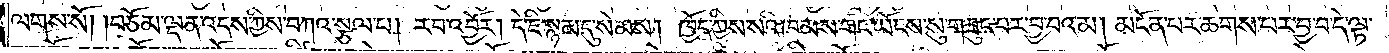ལགས་སོ། །བཅོམ་ལྡན་འདས་ཀྱིས་བཀའ་སྩལ་པ། རབ་འབྱོར། དེ་ཇི་སྙམ་དུ་སེམས། ཁྱོད་ཀྱིས་སའི་ཁམས་གང་ཡོངས་སུ་གཟུང་བར་བྱ་བའམ། མངོན་པར་ཆགས་པར་བྱ་བ་དེ་ལྟ་
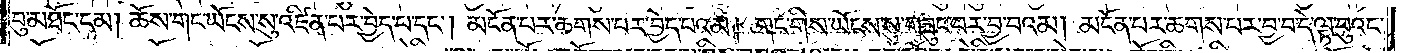བུ་མཐོང་ངམ། ཆོས་གང་ཡོངས་སུ་འཛིན་པར་བྱེད་པ་དང༌། མངོན་པར་ཆགས་པར་བྱེད་པའམ། གང་གིས་ཡོངས་སུ་གཟུང་བར་བྱ་བའམ། མངོན་པར་ཆགས་པར་བྱ་བ་དེ་ལྟ་བུའང་
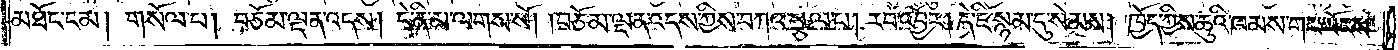མཐོང་ངམ། གསོལ་པ། བཅོམ་ལྡན་འདས། དེ་ནི་མ་ལགས་སོ། །བཅོམ་ལྡན་འདས་ཀྱིས་བཀའ་སྩལ་པ། རབ་འབྱོར། དེ་ཇི་སྙམ་དུ་སེམས། ཁྱོད་ཀྱིས་ཆུའི་ཁམས་གང་ཡོངས་
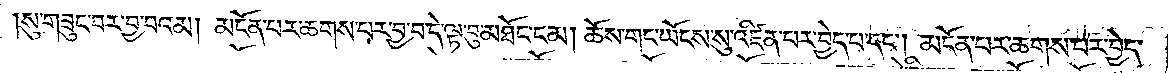སུ་གཟུང་བར་བྱ་བའམ། མངོན་པར་ཆགས་པར་བྱ་བ་དེ་ལྟ་བུ་མཐོང་ངམ། ཆོས་གང་ཡོངས་སུ་འཛིན་པར་བྱེད་པ་དང༌། མངོན་པར་ཆགས་པར་བྱེད་
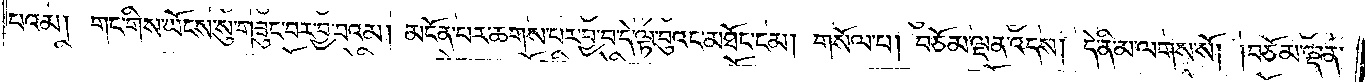པའམ། གང་གིས་ཡོངས་སུ་གཟུང་བར་བྱ་བའམ། མངོན་པར་ཆགས་པར་བྱ་བ་དེ་ལྟ་བུའང་མཐོང་ངམ། གསོལ་པ། བཅོམ་ལྡན་འདས། དེ་ནི་མ་ལགས་སོ། །བཅོམ་ལྡན་
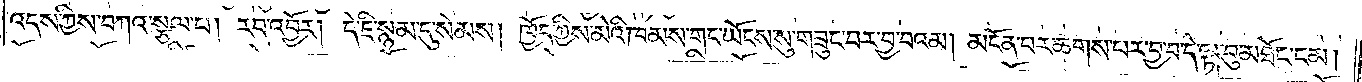འདས་ཀྱིས་བཀའ་སྩལ་པ། རབ་འབྱོར། དེ་ཇི་སྙམ་དུ་སེམས། ཁྱོད་ཀྱིས་མེའི་ཁམས་གང་ཡོངས་སུ་གཟུང་བར་བྱ་པའམ། མངོན་པར་ཆགས་པར་བྱ་བ་དེ་ལྟ་བུ་མཐོང་ངམ།
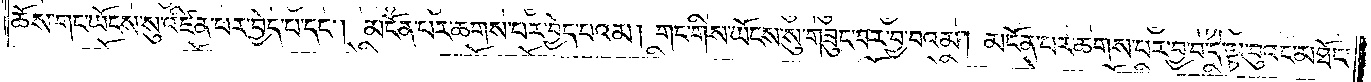ཆོས་གང་ཡོངས་སུ་འཛིན་པར་བྱེད་པ་དང༌། མངོན་པར་ཆགས་པར་བྱེད་པའམ། གང་གིས་ཡོངས་སུ་གཟུང་བར་བྱ་བའམ། མངོན་པར་ཆགས་པར་བྱ་བ་དེ་ལྟ་བུའང་མཐོང་
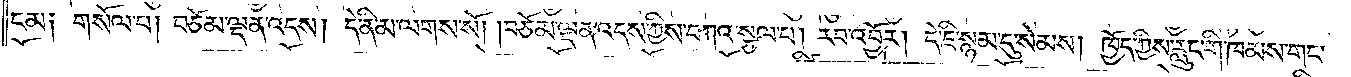ངམ༑ གསོལ་པ། བཅོམ་ལྡན་འདས། དེ་ནི་མ་ལགས་སོ། །བཅོམ་ལྡན་འདས་ཀྱིས་བཀའ་སྩལ་པ། རབ་འབྱོར། དེ་ཇི་སྙམ་དུ་སེམས། ཁྱོད་ཀྱིས་རླུང་གི་ཁམས་གང་
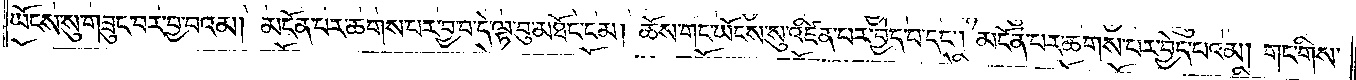ཡོངས་སུ་གཟུང་བར་བྱ་བའམ། མངོན་པར་ཆགས་པར་བྱ་བ་དེ་ལྟ་བུ་མཐོང་ངམ། ཆོས་གང་ཡོངས་སུ་འཛིན་པར་བྱེད་པ་དང༌། མངོན་པར་ཆགས་པར་བྱེད་པའམ། གང་གིས་
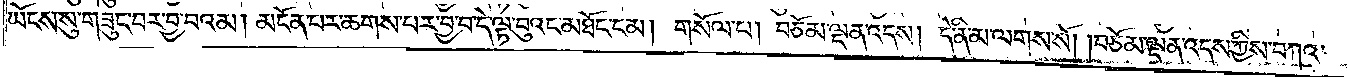ཡོངས་སུ་གཟུང་བར་བྱ་བའམ། མངོན་པར་ཆགས་པར་བྱ་བ་དེ་ལྟ་བུའང་མཐོང་ངམ། གསོལ་པ། བཅོམ་ལྡན་འདས། དེ་ནི་མ་ལགས་སོ། །བཅོམ་ལྡན་འདས་ཀྱིས་བཀའ་
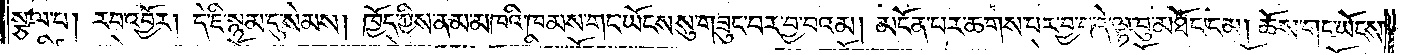སྩལ་པ། རབ་འབྱོར། དེ་ཇི་སྙམ་དུ་སེམས། ཁྱོད་ཀྱིས་ནམ་མཁའི་ཁམས་གང་ཡོངས་སུ་གཟུང་བར་བྱ་བའམ། མངོན་པར་ཆགས་པར་བྱ་བ་དེ་ལྟ་བུ་མཐོང་ངམ། ཆོས་གང་ཡོངས་
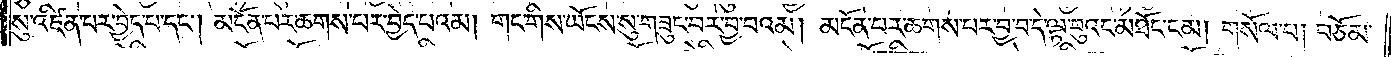སུ་འཛིན་པར་བྱེད་པ་དང༌། མངོན་པར་ཆགས་པར་བྱེད་པའམ། གང་གིས་ཡོངས་སུ་གཟུང་བར་བྱ་བའམ། མངོན་པར་ཆགས་པར་བྱ་བ་དེ་ལྟ་བུའང་མཐོང་ངམ། གསོལ་པ། བཅོམ་
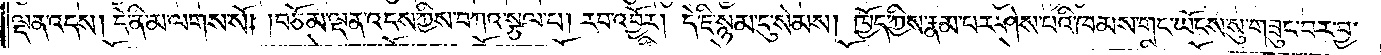ལྡན་འདས། དེ་ནི་མ་ལགས་སོ། །བཅོམ་ལྡན་འདས་ཀྱིས་བཀའ་སྩལ་པ། རབ་འབྱོར། དེ་ཇི་སྙམ་དུ་སེམས། ཁྱོད་ཀྱིས་རྣམ་པར་ཤེས་པའི་ཁམས་གང་ཡོངས་སུ་གཟུང་བར་བྱ་
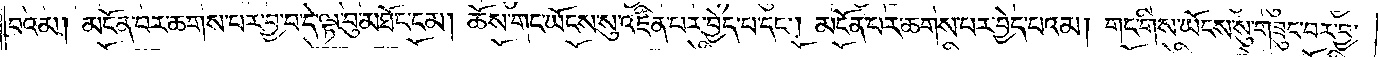བའམ། མངོན་པར་ཆགས་པར་བྱ་བ་དེ་ལྟ་བུ་མཐོང་ངམ། ཆོས་གང་ཡོངས་སུ་འཛིན་པར་བྱེད་པ་དང༌། མངོན་པར་ཆགས་པར་བྱེད་པའམ། གང་གིས་ཡོངས་སུ་གཟུང་བར་བྱ་
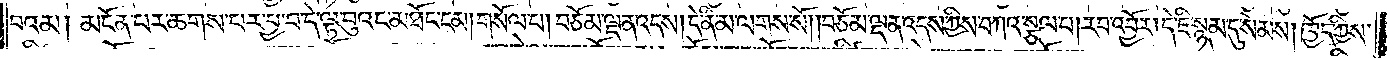བའམ། མངོན་པར་ཆགས་པར་བྱ་བ་དེ་ལྟ་བུའང་མཐོང་ངམ། གསོལ་པ། བཅོམ་ལྡན་འདས། དེ་ནི་མ་ལགས་སོ། །བཅོམ་ལྡན་འདས་ཀྱིས་བཀའ་སྩལ་པ། རབ་འབྱོར། དེ་ཇི་སྙམ་དུ་སེམས། ཁྱོད་ཀྱིས་
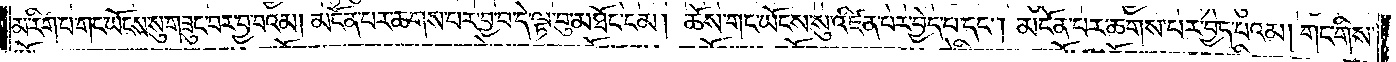མ་རིག་པ་གང་ཡོངས་སུ་གཟུང་བར་བྱ་བའམ། མངོན་པར་ཆགས་པར་བྱ་བ་དེ་ལྟ་བུ་མཐོང་ངམ། ཆོས་གང་ཡོངས་སུ་འཛིན་པར་བྱེད་པ་དང༌། མངོན་པར་ཆགས་པར་བྱེད་པའམ། གང་གིས་
